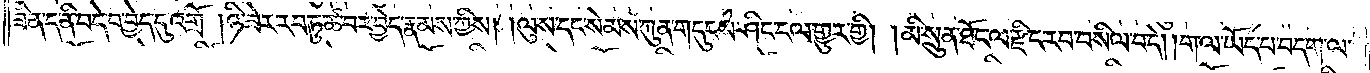ཟིན་ད་ནི་བདེ་བ་བྱེད་དུ་འགྲོ། །ཉི་ཟེར་རབ་ཏུ་ཚ་བར་བྱེད་རྣམས་ཀྱིས། །ལུས་དང་སེམས་ཀུན་གདུངས་ཤིང་ངལ་གྱུར་གྱི། །མི་སྲུན་ཐོང་ལ་རྫིང་རབ་བསིལ་བདེ། །ག་ལ་ཡོད་པ་བདག་ལ་
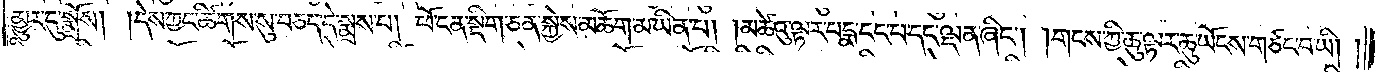མྱུར་དུ་སྨྲོས། །དེས་ཀྱང་ཚིགས་སུ་བཅད་དེ་སྨྲས་པ། ཕོ་ངན་སྡིག་ཅན་སྐྱེས་མཆོག་མ་ཡིན་པ། །མཚེའུ་ལྟར་པདྨ་ངང་པ་དང་ལྡན་ཞིང༌། །གངས་ཀྱི་ཆུ་ལྟར་ཆུ་ཡོངས་གཙང་བ་ཡི། །
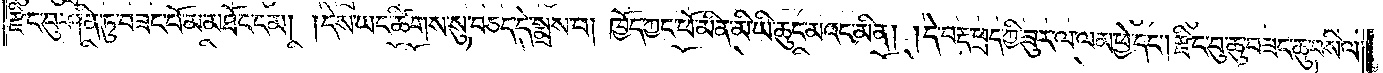རྫིང་བུ་ཤིན་ཏུ་བཟང་པོ་མ་མཐོང་ངམ། །དེས་ཡང་ཚིགས་སུ་བཅད་དེ་སྨྲས་པ། ཁྱོད་ཀྱང་ཕོ་མིན་མི་ཡི་ཆུང་མའང་མིན། །དེ་བརྡ་ཕྲད་ཀྱི་ཟུར་ལ་ལམ་ཕྱེ་དང༌། རྫིང་བུ་ཆུ་བཟང་ཆུ་བསིལ་
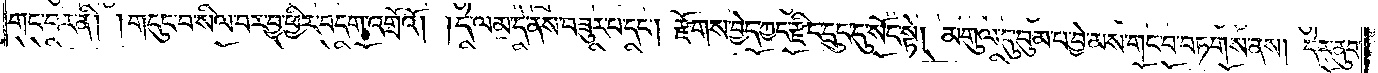གང་བར་ནི། གདུང་བ་སིལ་བར་བྱ་ཕྱིར་བདག་འགྲོའོ། །དེ་ལམ་དེ་ནས་བཟུར་བ་དང༌། རྫོགས་བྱེད་ཀྱང་རྫིང་དྲུང་དུ་སོང་སྟེ། མགུལ་དུ་བུམ་པ་བྱེད་མས་གང་བ་བཏགས་ནས། དེར་ནུབ་
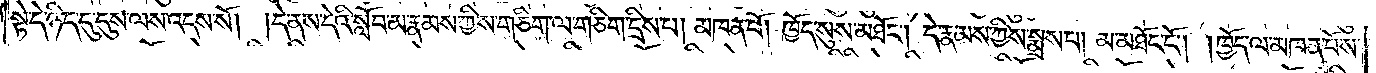སྟེ་དེ་ཉིད་དུ་དུས་ལས་འདས་སོ། །དེ་ནས་དེའི་སློབ་མ་རྣམས་ཀྱིས་གཅིག་ལ་གཅིག་དྲིས་པ། མཁན་པོ། ཁྱོད་སུས་མཐོང༌། དེ་རྣམས་ཀྱིས་སྨྲས་པ། མ་མཐོང་ངོ༌། །ཁྱོད་ལ་མཁན་པོས་
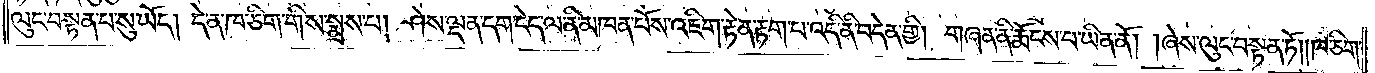ལུང་བསྟན་པ་སུ་ཡོད། དེ་ན་ཁ་ཅིག་གིས་སྨྲས་པ། ཤེས་ལྡན་དག་ངེད་ལ་ནི་མཁན་པོས་འཇིག་རྟེན་རྟག་པ་འདི་ནི་བདེན་གྱི། གཞན་ནི་རྨོངས་པ་ཡིན་ནོ། །ཞེས་ལུང་བསྟན་ཏོ། །ཁ་ཅིག་
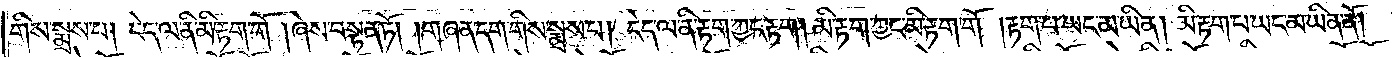གིས་སྨྲས་པ། ངེད་ལ་ནི་མི་རྟག་གོ །ཞེས་བསྟན་ཏོ། །གཞན་དག་གིས་སྨྲས་པ། ངེད་ལ་ནི་རྟག་ཀྱང་རྟག། མི་རྟག་ཀྱང་མི་རྟག་གོ །རྟག་པ་ཡང་མ་ཡིན། མི་རྟག་པ་ཡང་མ་ཡིན་ནོ། །
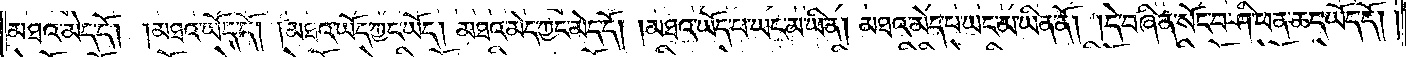མཐའ་མེད་དོ། །མཐའ་ཡོད་དོ། །མཐའ་ཡོད་ཀྱང་ཡོད། མཐའ་མེད་ཀྱང་མེད་དོ། །མཐའ་ཡོད་པ་ཡང་མ་ཡིན། མཐའ་མེད་པ་ཡང་མ་ཡིན་ནོ། །དེ་བཞིན་སོང་བ་ཤི་ཕན་ཆད་ཡོད་དོ། །
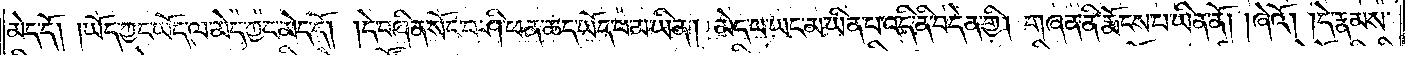མེད་དོ། །ཡོད་ཀྱང་ཡོད་ལ་མེད་ཀྱང་མེད་དོ། །དེ་བཞིན་སོང་བ་ཤི་ཕན་ཆད་ཡོད་པ་མ་ཡིན། མེད་པ་ཡང་མ་ཡིན་པ་འདི་ནི་བདེན་གྱི། གཞན་ནི་རྨོངས་པ་ཡིན་ནོ། །ཞེའོ། །དེ་རྣམས་
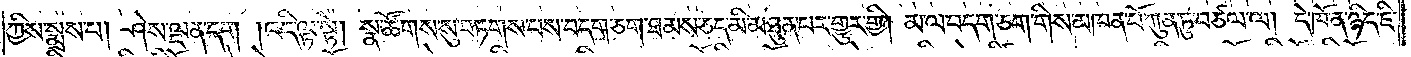ཀྱིས་སྨྲས་པ། ཤེས་ལྡན་དག །འདི་ལྟ་སྟེ། སྣ་ཚོགས་སུ་བཏགས་པས་བདག་ཅག་ཐམས་ཅད་མི་མཐུན་པར་གྱུར་གྱི། མ་ལ་བདག་ཅག་གིས་མཁན་པོ་ཀུན་ཏུ་བཙལ་ལ། དེ་ཁོ་ན་ཉིད་ཇི་
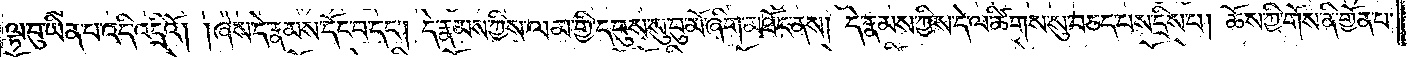ལྟ་བུ་ཡིན་པ་འདི་འདྲིའོ། །ཞེས་དེ་རྣམས་དོང་བ་དང༌། དེ་རྣམས་ཀྱིས་ལམ་གྱི་དབུས་སུ་བུ་མོ་ཞིག་མཐོང་ནས། དེ་རྣམས་ཀྱིས་དེ་ལ་ཚིགས་སུ་བཅད་པས་དྲིས་པ། ཆོས་ཀྱི་གོས་ནི་གྱོན་པ་
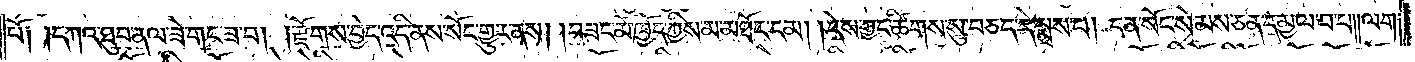པོ༑ །དཀའ་ཐུབ་ནལ་ཟེ་གང་ཟ་བ། །རྫོགས་བྱེད་འདི་ནས་སོང་གྱུར་ནས། །བཟང་མོ་ཁྱོད་ཀྱིས་མ་མཐོང་ངམ། །དེས་ཀྱང་ཚིགས་སུ་བཅད་དེ་སྨྲས་པ། ངན་སོང་སེམས་ཅན་དམྱལ་བ་པ། །ལག་
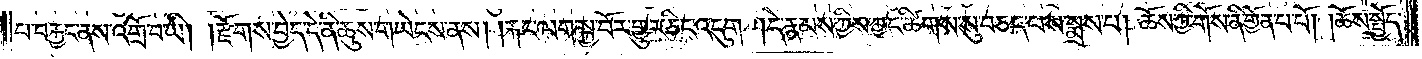པ་བརྐྱང་ནས་འགྲོ་བ་ཡི། །རྫོགས་བྱེད་དེ་ནི་ཆུས་གཡེངས་ནས། །རྐང་ལག་སྐྱ་བོར་གྱུར་ཅིང་འདུག །དེ་རྣམས་ཀྱིས་ཀྱང་ཚིགས་སུ་བཅད་པས་སྨྲས་པ། ཆོས་ཀྱི་གོས་ནི་གྱོན་པ་པོ། ཆོས་སྤྱོད་
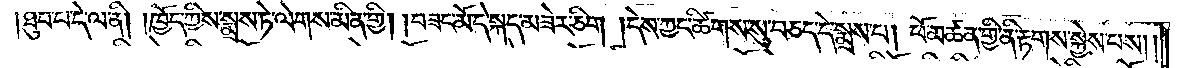ཐུབ་པ་དེ་ལ་ནི། །ཁྱོད་ཀྱིས་སྨྲས་ཏེ་ལེགས་མིན་གྱི། །བཟང་མོ་དེ་སྐད་མ་ཟེར་ཅིག །དེས་ཀྱང་ཚིགས་སུ་བཅད་དེ་སྨྲས་པ། ཕོ་མཚན་གྱི་ནི་རྟགས་སྐྱེས་པས། །
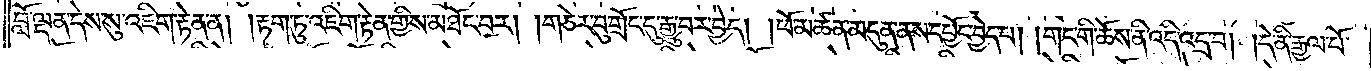བློ་ལྡན་དེས་སུ་འཇིག་རྟེན་ན། །རྟག་ཏུ་འཇིག་རྟེན་གྱིས་མཐོང་བར། །གཅེར་བུ་གྲོང་དུ་རྒྱུ་བར་བྱེད། །ཕོ་མཚན་མདུན་ནས་དཔྱོད་བྱེད་པ། །གང་གི་ཆོས་ནི་འདི་འདྲ་བ། །དེ་ནི་རྒྱལ་པོ་
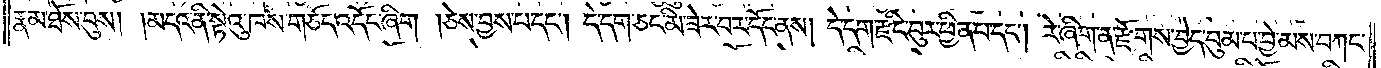རྣམ་ཐོས་བུས། །མདའ་ནི་སྟེའུ་ཁས་གཅོད་འདོང་ཞིག །ཅེས་བྱས་པ་དང༌། དེ་དག་ཅང་མི་ཟེར་བར་དོང་ནས། དེ་དག་རྫིང་བུར་ཕྱིན་པ་དང༌། རེ་ཞིག་ན་རྫོགས་བྱེད་བུམ་པ་བྱེ་མས་བཀང་
